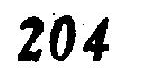204
